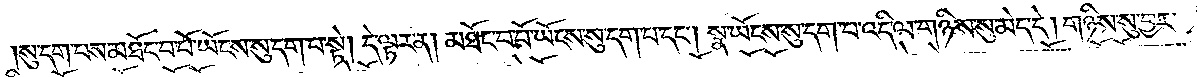སུ་དག་པས་མཐོང་བ་པོ་ཡོངས་སུ་དག་པ་སྟེ། དེ་ལྟར་ན། མཐོང་བ་པོ་ཡོངས་སུ་དག་པ་དང༌། སྣ་ཡོངས་སུ་དག་པ་འདི་ལ་གཉིས་སུ་མེད་དེ། གཉིས་སུ་བྱར་
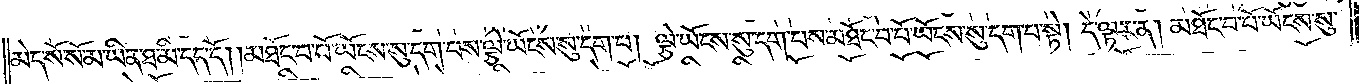མེད་སོ་སོ་མ་ཡིན་ཐ་མི་དད་དོ། །མཐོང་བ་པོ་ཡོངས་སུ་དག་པས་ལྕེ་ཡོངས་སུ་དག་པ། ལྕེ་ཡོངས་སུ་དག་པས་མཐོང་བ་པོ་ཡོངས་སུ་དག་པ་སྟེ། དེ་ལྟར་ན། མཐོང་བ་པོ་ཡོངས་སུ་
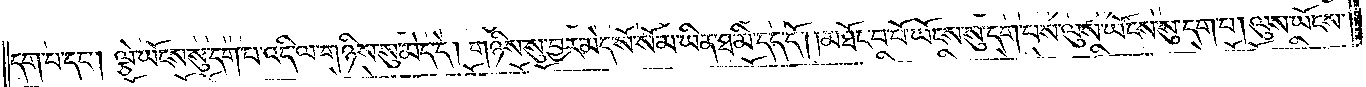དག་པ་དང༌། ལྕེ་ཡོངས་སུ་དག་པ་འདི་ལ་གཉིས་སུ་མེད་དེ། གཉིས་སུ་བྱར་མེད་སོ་སོ་མ་ཡིན་ཐ་མི་དད་དོ། །མཐོང་བ་པོ་ཡོངས་སུ་དག་པས་ལུས་ཡོངས་སུ་དག་པ། ལུས་ཡོངས་
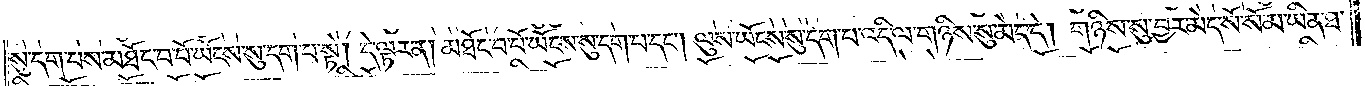སུ་དག་པས་མཐོང་བ་པོ་ཡོངས་སུ་དག་པ་སྟེ། དེ་ལྟར་ན། མཐོང་བ་པོ་ཡོངས་སུ་དག་པ་དང༌། ལུས་ཡོངས་སུ་དག་པ་འདི་ལ་གཉིས་སུ་མེད་དེ། གཉིས་སུ་བྱར་མེད་སོ་སོ་མ་ཡིན་ཐ་
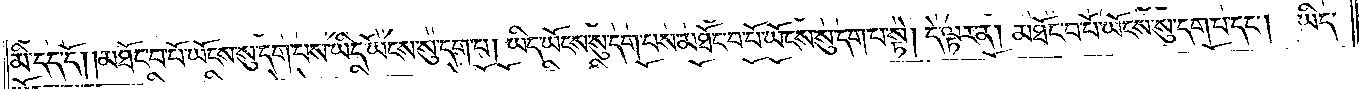མི་དད་དོ། །མཐོང་བ་པོ་ཡོངས་སུ་དག་པས་ཡིད་ཡོངས་སུ་དག་པ། ཡིད་ཡོངས་སུ་དག་པས་མཐོང་བ་པོ་ཡོངས་སུ་དག་པ་སྟེ། དེ་ལྟར་ན། མཐོང་བ་པོ་ཡོངས་སུ་དག་པ་དང༌། ཡིད་
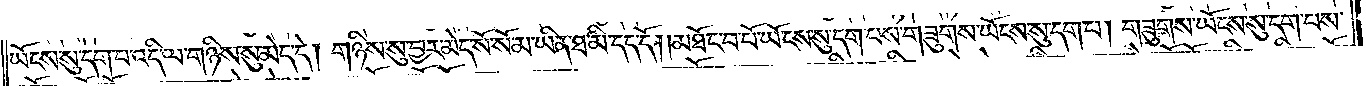ཡོངས་སུ་དག་པ་འདི་ལ་གཉིས་སུ་མེད་དེ། གཉིས་སུ་བྱར་མེད་སོ་སོ་མ་ཡིན་ཐ་མི་དད་དོ། །མཐོང་བ་པོ་ཡོངས་སུ་དག་པས་གཟུགས་ཡོངས་སུ་དག་པ། གཟུགས་ཡོངས་སུ་དག་པས་
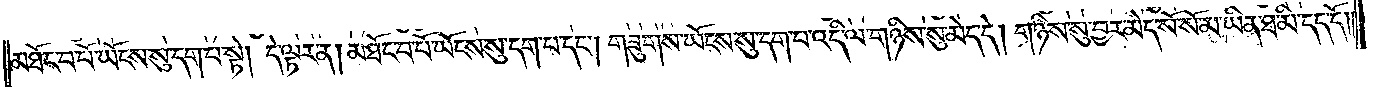མཐོང་བ་པོ་ཡོངས་སུ་དག་པ་སྟེ། དེ་ལྟར་ན། མཐོང་བ་པོ་ཡོངས་སུ་དག་པ་དང༌། གཟུགས་ཡོངས་སུ་དག་པ་འདི་ལ་གཉིས་སུ་མེད་དེ། གཉིས་སུ་བྱར་མེད་སོ་སོ་མ་ཡིན་ཐ་མི་དད་དོ། །
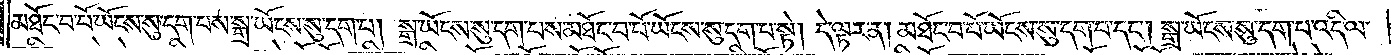མཐོང་བ་པོ་ཡོངས་སུ་དག་པས་སྒྲ་ཡོངས་སུ་དག་པ། སྒྲ་ཡོངས་སུ་དག་པས་མཐོང་བ་པོ་ཡོངས་སུ་དག་པ་སྟེ། དེ་ལྟར་ན། མཐོང་བ་པོ་ཡོངས་སུ་དག་པ་དང༌། སྒྲ་ཡོངས་སུ་དག་པ་འདི་ལ་
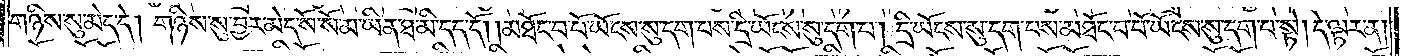གཉིས་སུ་མེད་དེ། གཉིས་སུ་བྱར་མེད་སོ་སོ་མ་ཡིན་ཐ་མི་དད་དོ། །མཐོང་བ་པོ་ཡོངས་སུ་དག་པས་དྲི་ཡོངས་སུ་དག་པ། དྲི་ཡོངས་སུ་དག་པས་མཐོང་བ་པོ་ཡོངས་སུ་དག་པ་སྟེ། དེ་ལྟར་ན།
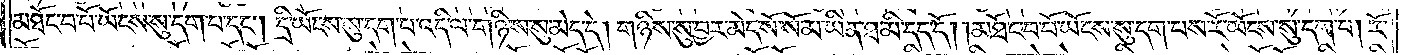མཐོང་བ་པོ་ཡོངས་སུ་དག་པ་དང༌། དྲི་ཡོངས་སུ་དག་པ་འདི་ལ་གཉིས་སུ་མེད་དེ། གཉིས་སུ་བྱར་མེད་སོ་སོ་མ་ཡིན་ཐ་མི་དད་དོ། །མཐོང་བ་པོ་ཡོངས་སུ་དག་པས་རོ་ཡོངས་སུ་དག་པ། རོ་
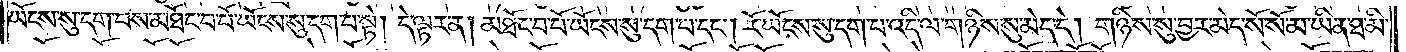ཡོངས་སུ་དག་པས་མཐོང་བ་པོ་ཡོངས་སུ་དག་པ་སྟེ། དེ་ལྟར་ན། མཐོང་བ་པོ་ཡོངས་སུ་དག་པ་དང༌། རོ་ཡོངས་སུ་དག་པ་འདི་ལ་གཉིས་སུ་མེད་དེ། གཉིས་སུ་བྱར་མེད་སོ་སོ་མ་ཡིན་ཐ་མི་
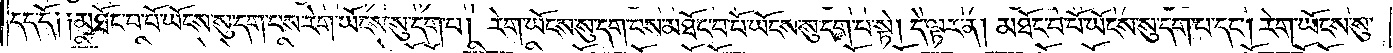དད་དོ༑ ༑མཐོང་བ་པོ་ཡོངས་སུ་དག་པས་རེག་ཡོངས་སུ་དག་པ། རེག་ཡོངས་སུ་དག་པས་མཐོང་བ་པོ་ཡོངས་སུ་དག་པ་སྟེ། དེ་ལྟར་ན། མཐོང་བ་པོ་ཡོངས་སུ་དག་པ་དང༌། རེག་ཡོངས་སུ་
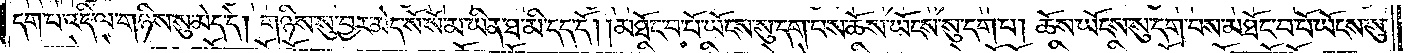དག་པ་འདི་ལ་གཉིས་སུ་མེད་དེ། གཉིས་སུ་བྱར་མེད་སོ་སོ་མ་ཡིན་ཐ་མི་དད་དོ། །མཐོང་བ་པོ་ཡོངས་སུ་དག་པས་ཆོས་ཡོངས་སུ་དག་པ། ཆོས་ཡོངས་སུ་དག་པས་མཐོང་བ་པོ་ཡོངས་སུ་
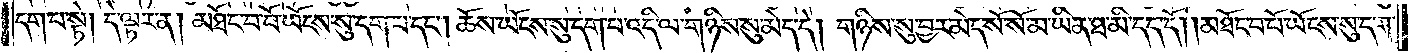དག་པ་སྟེ། དེ་ལྟར་ན། མཐོང་བ་པོ་ཡོངས་སུ་དག་པ་དང༌། ཆོས་ཡོངས་སུ་དག་པ་འདི་ལ་གཉིས་སུ་མེད་དེ། གཉིས་སུ་བྱར་མེད་སོ་སོ་མ་ཡིན་ཐ་མི་དད་དོ། །མཐོང་བ་པོ་ཡོངས་སུ་དག་
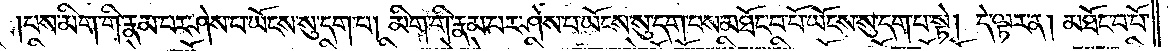པས་མིག་གི་རྣམ་པར་ཤེས་པ་ཡོངས་སུ་དག་པ། མིག་གི་རྣམ་པར་ཤེས་པ་ཡོངས་སུ་དག་པས་མཐོང་བ་པོ་ཡོངས་སུ་དག་པ་སྟེ། དེ་ལྟར་ན། མཐོང་བ་པོ་
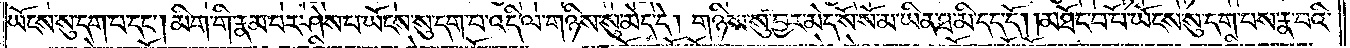ཡོངས་སུ་དག་པ་དང༌། མིག་གི་རྣམ་པར་ཤེས་པ་ཡོངས་སུ་དག་པ་འདི་ལ་གཉིས་སུ་མེད་དེ། གཉིས་སུ་བྱར་མེད་སོ་སོ་མ་ཡིན་ཐ་མི་དད་དོ། །མཐོང་བ་པོ་ཡོངས་སུ་དག་པས་རྣ་བའི་
